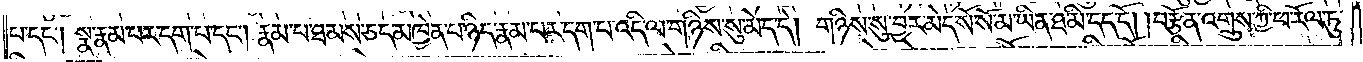པ་དང༌། སྣ་རྣམ་པར་དག་པ་དང༌། རྣམ་པ་ཐམས་ཅད་མཁྱེན་པ་ཉིད་རྣམ་པར་དག་པ་འདི་ལ་གཉིས་སུ་མེད་དེ། གཉིས་སུ་བྱར་མེད་སོ་སོ་མ་ཡིན་ཐ་མི་དད་དོ། །བརྩོན་འགྲུས་ཀྱི་ཕ་རོལ་ཏུ་
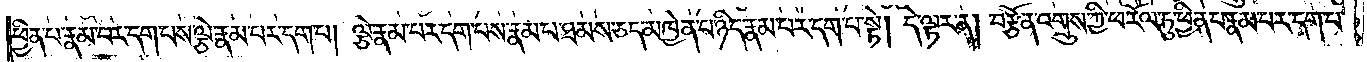ཕྱིན་པ་རྣམ་པར་དག་པས་ལྕེ་རྣམ་པར་དག་པ། ལྕེ་རྣམ་པར་དག་པས་རྣམ་པ་ཐམས་ཅད་མཁྱེན་པ་ཉིད་རྣམ་པར་དག་པ་སྟེ། དེ་ལྟར་ན་བརྩོན་འགྲུས་ཀྱི་ཕ་རོལ་ཏུ་ཕྱིན་པ་རྣམ་པར་དག་པ་
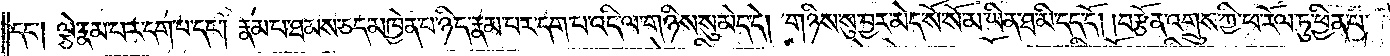དང༌། ལྕེ་རྣམ་པར་དག་པ་དང༌། རྣམ་པ་ཐམས་ཅད་མཁྱེན་པ་ཉིད་རྣམ་པར་དག་པ་འདི་ལ་གཉིས་སུ་མེད་དེ། གཉིས་སུ་བྱར་མེད་སོ་སོ་མ་ཡིན་ཐ་མི་དད་དོ། །བརྩོན་འགྲུས་ཀྱི་ཕ་རོལ་ཏུ་ཕྱིན་པ་
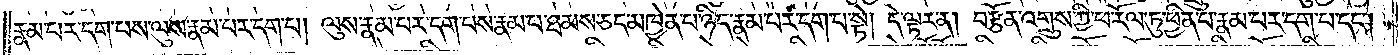རྣམ་པར་དག་པས་ལུས་རྣམ་པར་དག་པ། ལུས་རྣམ་པར་དག་པས་རྣམ་པ་ཐམས་ཅད་མཁྱེན་པ་ཉིད་རྣམ་པར་དག་པ་སྟེ། དེ་ལྟར་ན། བརྩོན་འགྲུས་ཀྱི་ཕ་རོལ་ཏུ་ཕྱིན་པ་རྣམ་པར་དག་པ་དང༌།
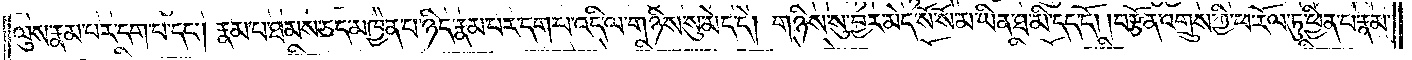ལུས་རྣམ་པར་དག་པ་དང༌། རྣམ་པ་ཐམས་ཅད་མཁྱེན་པ་ཉིད་རྣམ་པར་དག་པ་འདི་ལ་གཉིས་སུ་མེད་དེ། གཉིས་སུ་བྱར་མེད་སོ་སོ་མ་ཡིན་ཐ་མི་དད་དོ། །བརྩོན་འགྲུས་ཀྱི་ཕ་རོལ་ཏུ་ཕྱིན་པ་རྣམ་
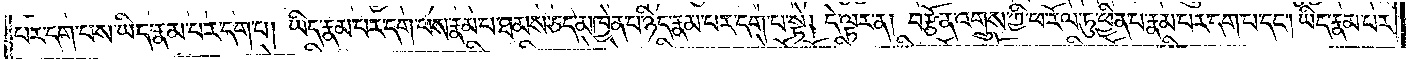པར་དག་པས་ཡིད་རྣམ་པར་དག་པ། ཡིད་རྣམ་པར་དག་པས་རྣམ་པ་ཐམས་ཅད་མཁྱེན་པ་ཉིད་རྣམ་པར་དག་པ་སྟེ། དེ་ལྟར་ན། བརྩོན་འགྲུས་ཀྱི་ཕ་རོལ་ཏུ་ཕྱིན་པ་རྣམ་པར་དག་པ་དང༌། ཡིད་རྣམ་པར་
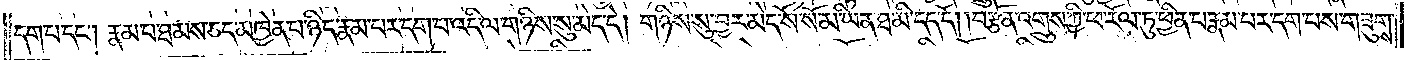དག་པ་དང༌། རྣམ་པ་ཐམས་ཅད་མཁྱེན་པ་ཉིད་རྣམ་པར་དག་པ་འདི་ལ་གཉིས་སུ་མེད་དེ། གཉིས་སུ་བྱར་མེད་སོ་སོ་མ་ཡིན་ཐ་མི་དད་དོ། །བརྩོན་འགྲུས་ཀྱི་ཕ་རོལ་ཏུ་ཕྱིན་པ་རྣམ་པར་དག་པས་གཟུགས་
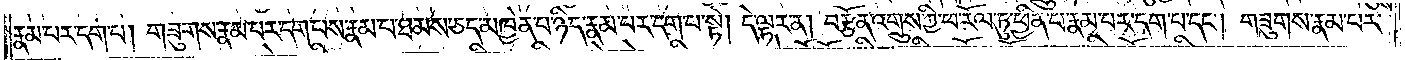རྣམ་པར་དག་པ། གཟུགས་རྣམ་པར་དག་པས་རྣམ་པ་ཐམས་ཅད་མཁྱེན་པ་ཉིད་རྣམ་པར་དག་པ་སྟེ། དེ་ལྟར་ན། བརྩོན་འགྲུས་ཀྱི་ཕ་རོལ་ཏུ་ཕྱིན་པ་རྣམ་པར་དག་པ་དང༌། གཟུགས་རྣམ་པར་
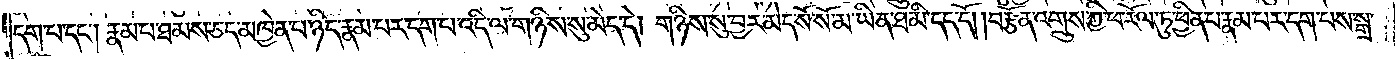དག་པ་དང༌། རྣམ་པ་ཐམས་ཅད་མཁྱེན་པ་ཉིད་རྣམ་པར་དག་པ་འདི་ལ་གཉིས་སུ་མེད་དེ། གཉིས་སུ་བྱར་མེད་སོ་སོ་མ་ཡིན་ཐ་མི་དད་དོ། །བརྩོན་འགྲུས་ཀྱི་ཕ་རོལ་ཏུ་ཕྱིན་པ་རྣམ་པར་དག་པས་སྒྲ་
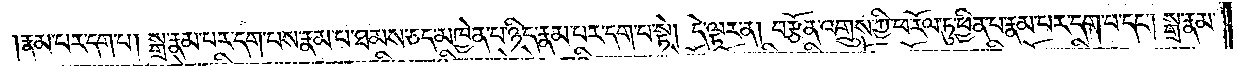རྣམ་པར་དག་པ། སྒྲ་རྣམ་པར་དག་པས་རྣམ་པ་ཐམས་ཅད་མཁྱེན་པ་ཉིད་རྣམ་པར་དག་པ་སྟེ། དེ་ལྟར་ན་བརྩོན་འགྲུས་ཀྱི་ཕ་རོལ་ཏུ་ཕྱིན་པ་རྣམ་པར་དག་པ་དང༌། སྒྲ་རྣམ་
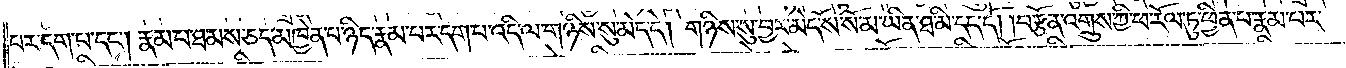པར་དག་པ་དང༌། རྣམ་པ་ཐམས་ཅད་མཁྱེན་པ་ཉིད་རྣམ་པར་དག་པ་འདི་ལ་གཉིས་སུ་མེད་དེ། གཉིས་སུ་བྱར་མེད་སོ་སོ་མ་ཡིན་ཐ་མི་དད་དོ༑ ༑བརྩོན་འགྲུས་ཀྱི་ཕ་རོལ་ཏུ་ཕྱིན་པ་རྣམ་པར་
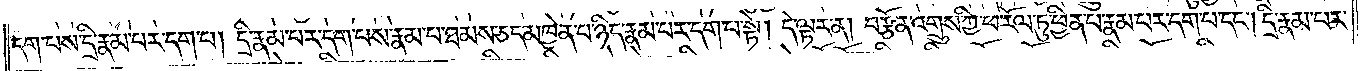དག་པས་དྲི་རྣམ་པར་དག་པ། དྲི་རྣམ་པར་དག་པས་རྣམ་པ་ཐམས་ཅད་མཁྱེན་པ་ཉིད་རྣམ་པར་དག་པ་སྟེ། དེ་ལྟར་ན། བརྩོན་འགྲུས་ཀྱི་ཕ་རོལ་ཏུ་ཕྱིན་པ་རྣམ་པར་དག་པ་དང༌། དྲི་རྣམ་པར་
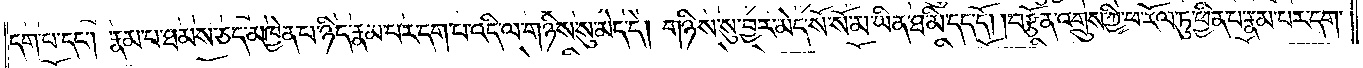དག་པ་དང༌། རྣམ་པ་ཐམས་ཅད་མཁྱེན་པ་ཉིད་རྣམ་པར་དག་པ་འདི་ལ་གཉིས་སུ་མེད་དེ། གཉིས་སུ་བྱར་མེད་སོ་སོ་མ་ཡིན་ཐ་མི་དད་དོ། ། བརྩོན་འགྲུས་ཀྱི་ཕ་རོལ་ཏུ་ཕྱིན་པ་རྣམ་པར་དག་
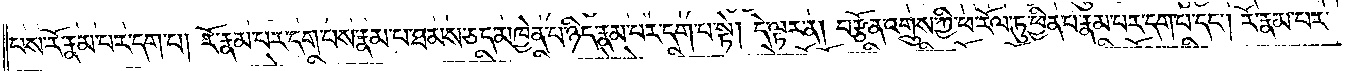པས་རོ་རྣམ་པར་དག་པ། རོ་རྣམ་པར་དག་པས་རྣམ་པ་ཐམས་ཅད་མཁྱེན་པ་ཉིད་རྣམ་པར་དག་པ་སྟེ། དེ་ལྟར་ན་བརྩོན་འགྲུས་ཀྱི་ཕ་རོལ་ཏུ་ཕྱིན་པ་རྣམ་པར་དག་པ་དང༌། རོ་རྣམ་པར་
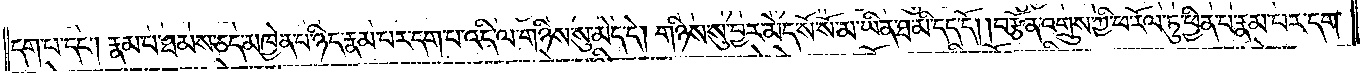དག་པ་དང༌། རྣམ་པ་ཐམས་ཅད་མཁྱེན་པ་ཉིད་རྣམ་པར་དག་པ་འདི་ལ་གཉིས་སུ་མེད་དེ། གཉིས་སུ་བྱར་མེད་སོ་སོ་མ་ཡིན་ཐ་མི་དད་དོ། །བརྩོན་འགྲུས་ཀྱི་ཕ་རོལ་ཏུ་ཕྱིན་པ་རྣམ་པར་དག་
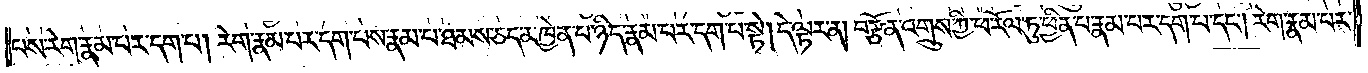པས་རེག་རྣམ་པར་དག་པ། རེག་རྣམ་པར་དག་པས་རྣམ་པ་ཐམས་ཅད་མཁྱེན་པ་ཉིད་རྣམ་པར་དག་པ་སྟེ། དེ་ལྟར་ན། བརྩོན་འགྲུས་ཀྱི་ཕ་རོལ་ཏུ་ཕྱིན་པ་རྣམ་པར་དག་པ་དང༌། རེག་རྣམ་པར་
